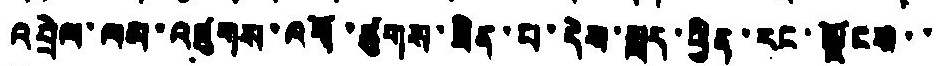འབྲེལ་ལམ་འཛུགས་འདོ་ཚུགས་ཟིན་པ་དེས་སླད་ཕྱིན་རང་ལྗོངས་་
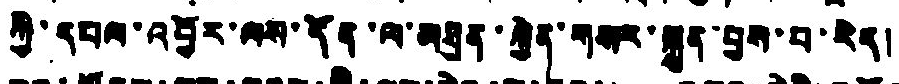ཀྱི་དཔལ་འབྱོར་ལས་དོན་ལ་མཐུན་རྐྱེན་གསར་སྐྲུན་བྱས་པ་རེད།
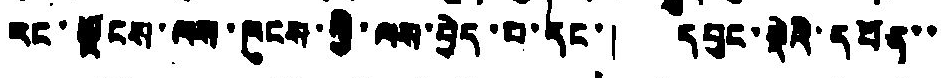རང་ལྗོངས་ལས་ཁུངས་ཀྱི་ལས་བྱེད་པ་དང་། དཔུང་སྡེའི་དཔོན་་
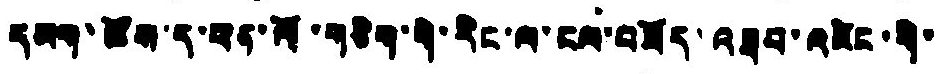དམག་ཚོས་ད་ཕན་ལོ་གཅིག་གི་རིང་ལ་ངལ་བཟོད་འཐབ་འཛིང་གི་
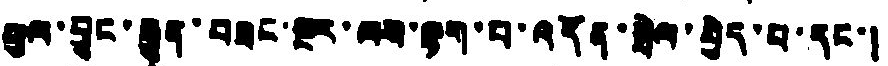བུལ་བྱུང་རྒྱུན་བཟང་སྔར་ལས་ལྷག་པ་འདོན་སྤེལ་བྱེད་པ་དང་།
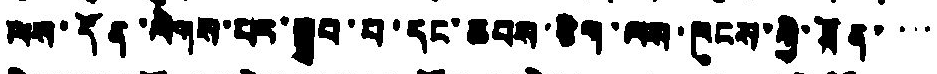ལས་དོན་ལེགས་པར་སྒྲུབ་པ་དང་ཆབས་ཅིག་ལས་ཁུངས་ཀྱི་ཐོན་་་་
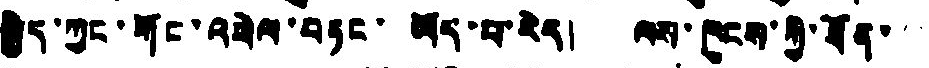སྐྱེད་ཀྱང་གོང་འཕེལ་བཏང་ ཡོད་པ་རེད། ལས་ཁུངས་ཀྱི་ཐོན་་་
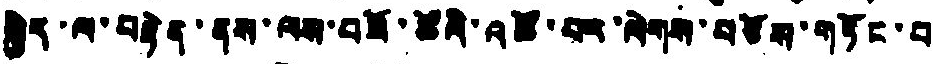སྐྱེད་ལ་བརྟེན་ནས་ལས་བཟོ་ཚོའི་འཚོ་བར་ལེགས་བཅོས་གཏོང་བ
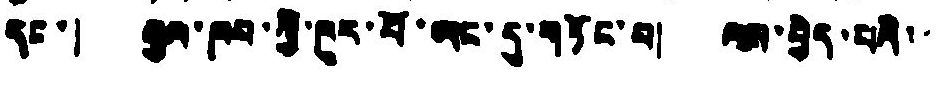དང་། རྒྱལ་ཁབ་ཀྱི་ཁུར་པོ་ཡང་དུ་གཏོང་བ། ལས་བྱེད་པའི་་
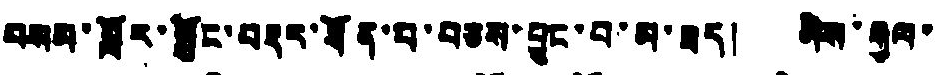བསས་བློར་སྦྱོང་བརྡར་ཐོན་པ་བཅས་བྱུང་བ་མ་ཟད། མེས་རྒྱལ་
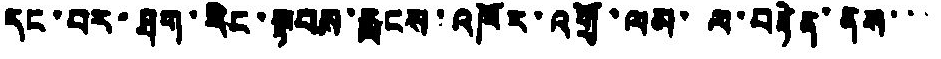དང་བར་ཐག་རིང་སྟབས་རླངས་འཁོར་འགྲོ་ལམ་ལ་བརྟེན་ནས་་་
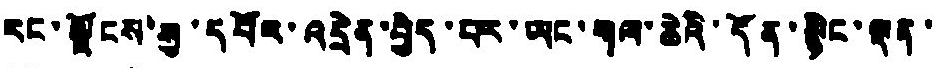རང་ལྗོངས་སུ་དབོར་འདྲེན་བྱེད་པར་ཡང་གལ་ཆེའི་དོན་སྙིང་ལྡན་
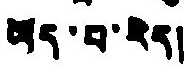ཡོད་པ་རེད།
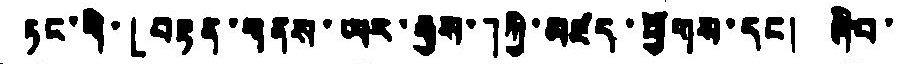ཏང་གི་「བརྟན་གནས་ཡར་རྒྱས་」ཀྱི་མཛད་ཕྱོགས་དང། ཞིབ་
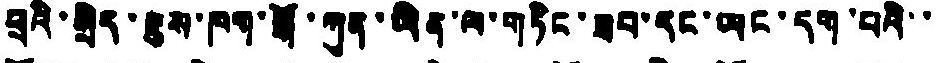ཕྲའི་སྲིད་ཇུས་ཁག་སྒོ་ཀུན་ཡིན་ལ་གཏིང་ཟབ་དང་ཡང་དག་པའི་་
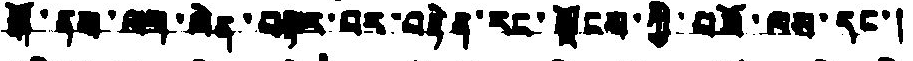སྒོ་ནས་ལག་ལེན་བསྟར་བར་བརྟེན་རང་ལྗོངས་ཀྱི་བཟོ་ཁས་དང་།
